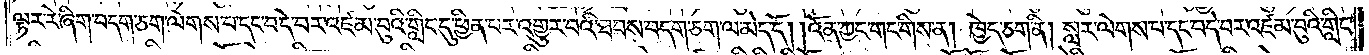ལྟར་རེ་ཞིག་བདག་ཅག་ལེགས་པ་དང་བདེ་བར་འཛམ་བུའི་གླིང་དུ་ཕྱིན་པར་འགྱུར་བའི་ཐབས་བདག་ཅག་ལ་མེད་དོ། །འོན་ཀྱང་གང་གིས་ན། ཁྱེད་ཅག་ནི། སླར་ལེགས་པ་དང་བདེ་བར་འཛམ་བུའི་གླིང་
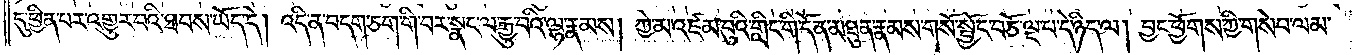དུ་ཕྱིན་པར་འགྱུར་བའི་ཐབས་ཡོད་དེ། འདི་ན་བདག་ཅག་གི་བར་སྣང་ལ་རྒྱུ་བའི་ལྷ་རྣམས། ཀྱེ་མ་འཛམ་བུའི་གླིང་གི་དོན་མཐུན་རྣམས་གསོ་སྦྱོང་བཅོ་ལྔ་པ་དེ་ཉིད་ལ། བྱང་ཕྱོགས་ཀྱི་གསེབ་ལམ་
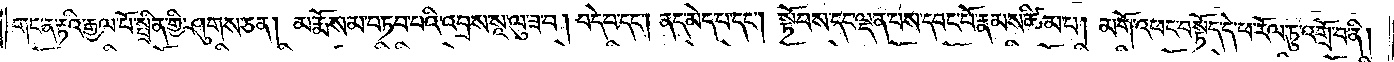གང་ན་རྟའི་རྒྱལ་པོ་སྤྲིན་གྱི་ཤུགས་ཅན། མ་རྨོས་མ་བཏབ་པའི་འབྲས་སཱ་ལུ་ཟ་བ། བདེ་བ་དང༌། ནད་མེད་པ་དང༌། སྟོབས་དང་ལྡན་པས་དབང་པོ་རྣམས་ཚིམ་པ། མགོ་འཕང་བསྟོད་དེ་ཕ་རོལ་ཏུ་འགྲོ་བ་ནི།
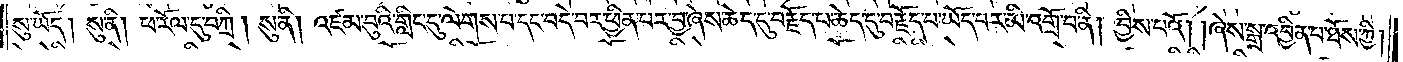སུ་ཡོད། སུ་ནི། ཕ་རོལ་དུ་བཀྲི། སུ་ནི། འཛམ་བུའི་གླིང་དུ་ལེགས་པ་དང་བདེ་བར་ཕྱིན་པར་བྱ་ཞེས་ཆེད་དུ་བརྗོད་པ་ཆེད་དུ་བརྗོད་པ་ཡོད་པར་མི་འགྲོ་བ་ནི། བྱིས་པའོ། །ཞེས་སྒྲ་འབྱིན་པ་ཐོས་ཀྱི།
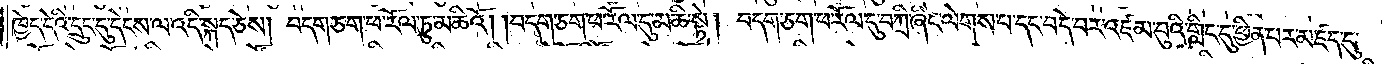ཁྱེད་དེའི་དྲུང་དུ་དེངས་ལ་འདི་སྐད་ཅེས། བདག་ཅག་ཕ་རོལ་ཏུ་མཆིའོ། །བདག་ཅག་ཕ་རོལ་དུ་མཆི་སྟེ། བདག་ཅག་ཕ་རོལ་དུ་བཀྲི་ཞིང་ལེགས་པ་དང་བདེ་བར་འཛམ་བུའི་གླིང་དུ་ཕྱིན་པར་མཛད་དུ་
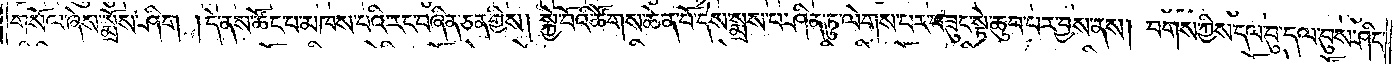གསོལ་ཞེས་སྨྲོས་ཤིག །དེ་ནས་ཚོང་པ་མཁས་པའི་རང་བཞིན་ཅན་གྱིས། སྐྱེ་བོའི་ཚོགས་ཆེན་པོ་དེས་སྨྲས་པ་ཤིན་ཏུ་ལེགས་པར་བཟུང་སྟེ་ཆུབ་པར་བྱས་ནས། བགས་ཀྱིས་དལ་བུ་དལ་བུས་ཤིང་
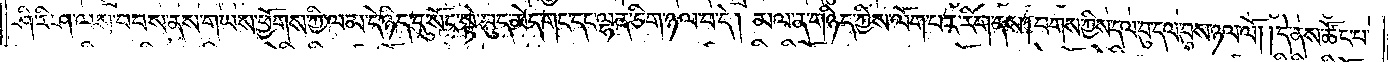ཤི་རི་ཤ་ལས་བབས་ནས་གཡས་ཕྱོགས་ཀྱི་ལམ་དེ་ཉིད་དུ་སོང་སྟེ་བུད་མེད་གང་དང་ལྷན་ཅིག་ཉལ་བ་དེ། མལ་ན་གཉིད་ཀྱིས་ལོག་པར་རིག་ནས། བགས་ཀྱིས་དལ་བུ་དལ་བུས་ཉལ་ལོ། །དེ་ནས་ཚོང་པ་
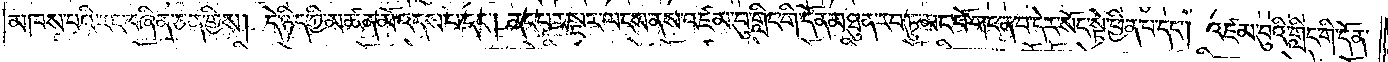མཁས་པའི་རང་བཞིན་ཅན་གྱིས། དེ་ཉིད་ཀྱི་མཚན་མོ་འདས་པ་དང༌། ནང་པར་སྔར་ལངས་ནས་འཛམ་བུ་གླིང་གི་དོན་མཐུན་རབ་ཏུ་མང་པོ་གང་ན་བ་དེར་སོང་སྟེ་ཕྱིན་པ་དང༌། འཛམ་བུའི་གླིང་གི་དོན་
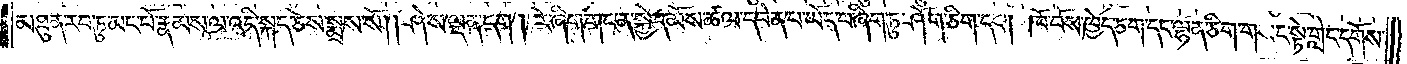མཐུན་རབ་ཏུ་མང་པོ་རྣམས་ལ་འདི་སྐད་ཅེས་སྨྲས་སོ། །ཤེས་ལྡན་དང༌། རེ་ཞིག་གང་ན་སྐྱེད་མོས་ཚལ་དབེན་པ་ཡོད་པ་ཞིག་ཏུ་ཤོག་ཅིག་དང༌། ཁོ་བོས་ཁྱེད་ཅག་དང་ལྷན་ཅིག་གསང་སྟེ་གླེང་དགོས་
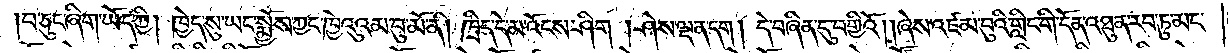པ་ཅུང་ཞིག་ཡོད་ཀྱི། ཁྱེད་སུ་ཡང་སྨྱོས་ཀྱང་ཁྱེའུའམ་བུ་མོ་ནི། ཁྲིད་དེ་མ་འོངས་ཤིག །ཤེས་ལྡན་དག། དེ་བཞིན་དུ་བགྱིའོ། །ཞེས་འཛམ་བུའི་གླིང་གི་དོན་མཐུན་རབ་ཏུ་མང་
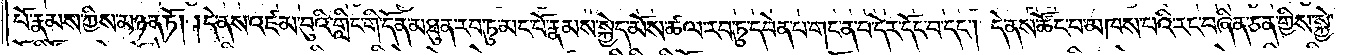པོ་རྣམས་ཀྱིས་མཉན་ཏོ། །དེ་ནས་འཛམ་བུའི་གླིང་གི་དོན་མཐུན་རབ་ཏུ་མང་པོ་རྣམས་སྐྱེད་མོས་ཚལ་རབ་ཏུ་དབེན་པ་གང་ན་བ་དེར་དོང་པ་དང༌། དེ་ནས་ཚོང་པ་མཁས་པའི་རང་བཞིན་ཅན་གྱིས་སྐྱེ་
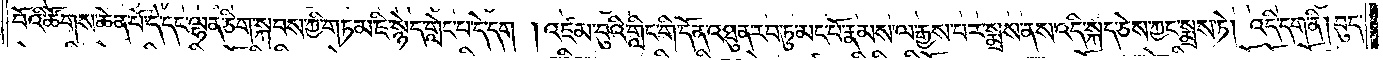བོའི་ཚོགས་ཆེན་པོ་དེ་དང་ལྷན་ཅིག་སྐབས་ཀྱི་གཏམ་ཇི་སྙེད་གླེང་པ་དེ་དག །འཛམ་བུའི་གླིང་གི་དོན་འཐུན་རབ་ཏུ་མང་པོ་རྣམས་ལ་རྒྱས་པར་སྨྲས་ནས་འདི་སྐད་ཅེས་ཀྱང་སྨྲས་ཏེ། འདི་དག་ནི། བུད་
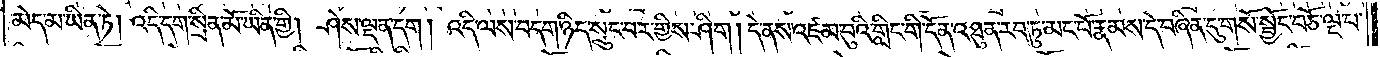མེད་མ་ཡིན་ཏེ། འདི་དག་སྲིན་མོ་ཡིན་གྱི། ཤེས་ལྡན་དག །འདི་ལས་བདག་ཉིད་སྲུང་བར་གྱིས་ཤིག །དེ་ནས་འཛམ་བུའི་གླིང་གི་དོན་འཐུན་རབ་ཏུ་མང་པོ་རྣམས་དེ་བཞིན་དུ་གསོ་སྦྱོང་བཅོ་ལྔ་པ་
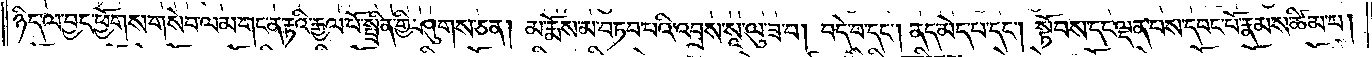ཉིད་ལ་བྱང་ཕྱོགས་གསེབ་ལམ་གང་ན་རྟའི་རྒྱལ་པོ་སྤྲིན་གྱི་ཤུགས་ཅན། མ་རྨོས་མ་བཏབ་པའི་འབྲས་སཱ་ལུ་ཟ་བ། བདེ་བ་དང༌། ནད་མེད་པ་དང༌། སྟོབས་དང་ལྡན་པས་དབང་པོ་རྣམས་ཚིམ་པ།
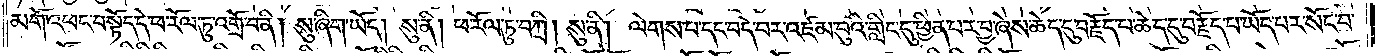མགོ་འཕང་བསྟོད་དེ་ཕ་རོལ་ཏུ་འགྲོ་བ་ནི། སུ་ཞིག་ཡོད། སུ་ནི། ཕ་རོལ་ཏུ་བཀྲི། སུ་ནི། ལེགས་པ་དང་བདེ་བར་འཛམ་བུའི་གླིང་དུ་ཕྱིན་པར་བྱ་ཞེས་ཆེད་དུ་བརྗོད་པ་ཆེད་དུ་བརྗོད་པ་ཡོད་པར་སོང་བ་
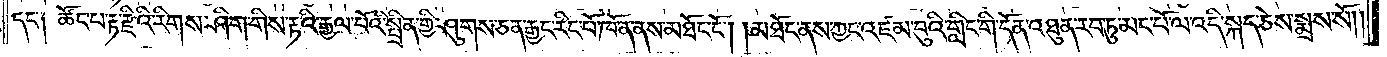དང༌། ཚོང་པ་རྟ་རྫིའི་རིགས་ཤིག་གིས་རྟའི་རྒྱལ་པོའི་སྤྲིན་གྱི་ཤུགས་ཅན་རྒྱང་རིང་པོ་ཁོ་ན་ནས་མཐོང་ངོ༌། །མཐོང་ནས་ཀྱང་འཛམ་བུའི་གླིང་གི་དོན་འཐུན་རབ་ཏུ་མང་པོ་ལ་འདི་སྐད་ཅེས་སྨྲས་སོ། །
